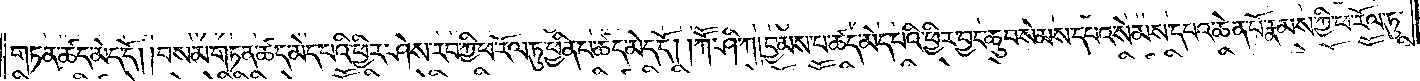གཏན་ཚད་མེད་དོ། །བསམ་གཏན་ཚད་མེད་པའི་ཕྱིར་ཤེས་རབ་ཀྱི་ཕ་རོལ་ཏུ་ཕྱིན་པ་ཚད་མེད་དོ། །ཀཽ་ཤི་ཀ། བྱམས་པ་ཚད་མེད་པའི་ཕྱིར་བྱང་ཆུབ་སེམས་དཔའ་སེམས་དཔའ་ཆེན་པོ་རྣམས་ཀྱི་ཕ་རོལ་ཏུ་
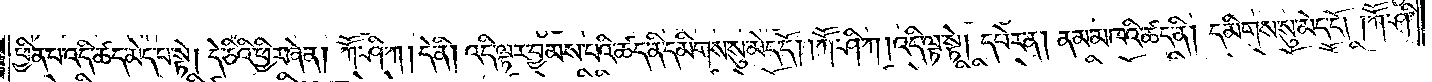ཕྱིན་པ་འདི་ཚད་མེད་པ་སྟེ། དེ་ཅིའི་ཕྱིར་ཞེ་ན། ཀཽ་ཤི་ཀ། དེ་ནི། འདི་ལྟར་བྱམས་པའི་ཚད་ནི་དམིགས་སུ་མེད་དོ། །ཀཽ་ཤི་ཀ། འདི་ལྟ་སྟེ། དཔེར་ན། ནམ་མཁའི་ཚད་ནི། དམིགས་སུ་མེད་དོ། །ཀཽ་ཤི་
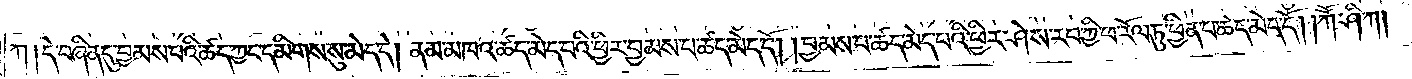ཀ། དེ་བཞིན་དུ་བྱམས་པའི་ཚད་ཀྱང་དམིགས་སུ་མེད་དེ། ནམ་མཁའ་ཚད་མེད་པའི་ཕྱིར་བྱམས་པ་ཚད་མེད་དོ། །བྱམས་པ་ཚད་མེད་པའི་ཕྱིར་ཤེས་རབ་ཀྱི་ཕ་རོལ་ཏུ་ཕྱིན་པ་ཚད་མེད་དོ། །ཀཽ་ཤི་ཀ།
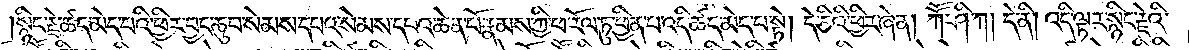སྙིང་རྗེ་ཚད་མེད་པའི་ཕྱིར་བྱང་ཆུབ་སེམས་དཔའ་སེམས་དཔའ་ཆེན་པོ་རྣམས་ཀྱི་ཕ་རོལ་ཏུ་ཕྱིན་པ་འདི་ཚད་མེད་པ་སྟེ། དེ་ཅིའི་ཕྱིར་ཞེ་ན། ཀཽ་ཤི་ཀ། དེ་ནི། འདི་ལྟར་སྙིང་རྗེའི་
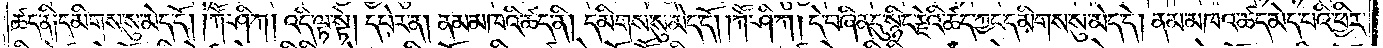ཚད་ནི། དམིགས་སུ་མེད་དོ། །ཀཽ་ཤི་ཀ། འདི་ལྟ་སྟེ། དཔེར་ན། ནམ་མཁའི་ཚད་ནི། དམིགས་སུ་མེད་དོ། །ཀཽ་ཤི་ཀ། དེ་བཞིན་དུ་སྙིང་རྗེའི་ཚད་ཀྱང་དམིགས་སུ་མེད་དེ། ནམ་མཁའ་ཚད་མེད་པའི་ཕྱིར་
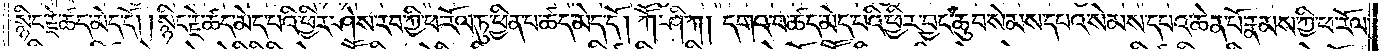སྙིང་རྗེ་ཚད་མེད་དོ། །སྙིང་རྗེ་ཚད་མེད་པའི་ཕྱིར་ཤེས་རབ་ཀྱི་ཕ་རོལ་ཏུ་ཕྱིན་པ་ཚད་མེད་དོ། ཀཽ་ཤི་ཀ། དགའ་བ་ཚད་མེད་པའི་ཕྱིར་བྱང་ཆུབ་སེམས་དཔའ་སེམས་དཔའ་ཆེན་པོ་རྣམས་ཀྱི་ཕ་རོལ་
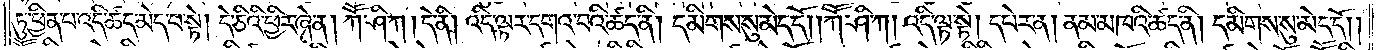ཏུ་ཕྱིན་པ་འདི་ཚད་མེད་པ་སྟེ། དེ་ཅིའི་ཕྱིར་ཞེ་ན། ཀཽ་ཤི་ཀ། དེ་ནི། འདི་ལྟར་དགའ་བའི་ཚད་ནི། དམིགས་སུ་མེད་དོ། །ཀཽ་ཤི་ཀ། འདི་ལྟ་སྟེ། དཔེར་ན། ནམ་མཁའི་ཚད་ནི། དམིགས་སུ་མེད་དོ༎
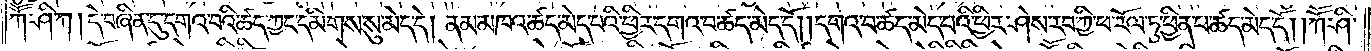ཀཽ་ཤི་ཀ། དེ་བཞིན་དུ་དགའ་བའི་ཚད་ཀྱང་དམིགས་སུ་མེད་དེ། ནམ་མཁའ་ཚད་མེད་པའི་ཕྱིར་དགའ་བ་ཚད་མེད་དོ། །དགའ་བ་ཚད་མེད་པའི་ཕྱིར་ཤེས་རབ་ཀྱི་ཕ་རོལ་ཏུ་ཕྱིན་པ་ཚད་མེད་དོ། །ཀཽ་ཤི་
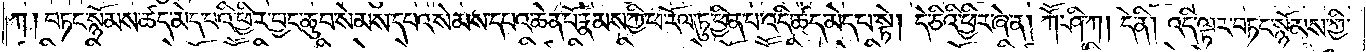ཀ། བཏང་སྙོམས་ཚད་མེད་པའི་ཕྱིར་བྱང་ཆུབ་སེམས་དཔའ་སེམས་དཔའ་ཆེན་པོ་རྣམས་ཀྱི་ཕ་རོལ་ཏུ་ཕྱིན་པ་འདི་ཚད་མེད་པ་སྟེ། དེ་ཅིའི་ཕྱིར་ཞེ་ན། ཀཽ་ཤི་ཀ། དེ་ནི། འདི་ལྟར་བཏང་སྙོམས་ཀྱི་
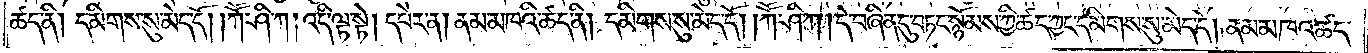ཚད་ནི། དམིགས་སུ་མེད་དོ། །ཀཽ་ཤི་ཀ། འདི་ལྟ་སྟེ། དཔེར་ན། ནམ་མཁའི་ཚད་ནི། དམིགས་སུ་མེད་དོ། །ཀཽ་ཤི་ཀ། དེ་བཞིན་དུ་བཏང་སྙོམས་ཀྱི་ཚད་ཀྱང་དམིགས་སུ་མེད་དེ། ནམ་མཁའ་ཚད་
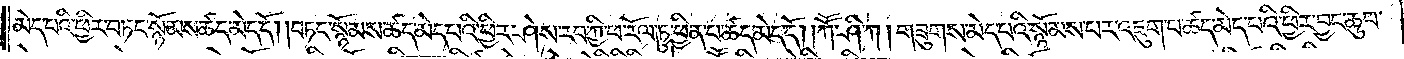མེད་པའི་ཕྱིར་བཏང་སྙོམས་ཚད་མེད་དོ། བཏང་སྙོམས་ཚད་མེད་པའི་ཕྱིར་ཤེས་རབ་ཀྱི་ཕ་རོལ་ཏུ་ཕྱིན་པ་ཚད་མེད་དོ། །ཀཽ་ཤི་ཀ། གཟུགས་མེད་པའི་སྙོམས་པར་འཇུག་པ་ཚད་མེད་པའི་ཕྱིར་བྱང་ཆུབ་
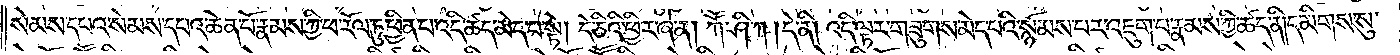སེམས་དཔའ་སེམས་དཔའ་ཆེན་པོ་རྣམས་ཀྱི་ཕ་རོལ་ཏུ་ཕྱིན་པ་འདི་ཚད་མེད་པ་སྟེ། དེ་ཅིའི་ཕྱིར་ཞེ་ན། ཀཽ་ཤི་ཀ །དེ་ནི། འདི་ལྟར་གཟུགས་མེད་པའི་སྙོམས་པར་འཇུག་པ་རྣམས་ཀྱི་ཚད་ནི། དམིགས་སུ་
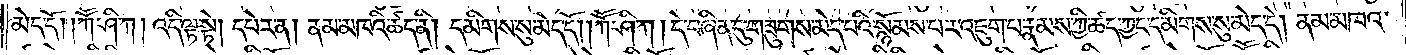མེད་དོ། །ཀཽ་ཤི་ཀ། འདི་ལྟ་སྟེ། དཔེར་ན། ནམ་མཁའི་ཚད་ནི། དམིགས་སུ་མེད་དོ། །ཀཽ་ཤི་ཀ། དེ་བཞིན་དུ་གཟུགས་མེད་པའི་སྙོམས་པར་འཇུག་པ་རྣམས་ཀྱི་ཚད་ཀྱང་དམིགས་སུ་མེད་དེ། ནམ་མཁའ་
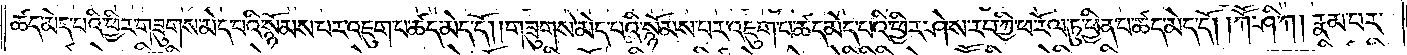ཚད་མེད་པའི་ཕྱིར་གཟུགས་མེད་པའི་སྙོམས་པར་འཇུག་པ་ཚད་མེད་དོ། །གཟུགས་མེད་པའི་སྙོམས་པར་འཇུག་པ་ཚད་མེད་པའི་ཕྱིར་ཤེས་རབ་ཀྱི་ཕ་རོལ་ཏུ་ཕྱིན་པ་ཚད་མེད་དོ། །ཀཽ་ཤི་ཀ། རྣམ་པར་
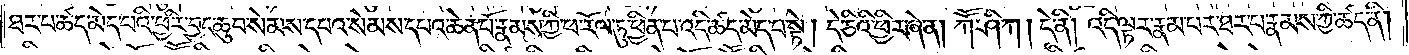ཐར་པ་ཚད་མེད་པའི་ཕྱིར་བྱང་ཆུབ་སེམས་དཔའ་སེམས་དཔའ་ཆེན་པོ་རྣམས་ཀྱི་ཕ་རོལ་ཏུ་ཕྱིན་པ་འདི་ཚད་མེད་པ་སྟེ། དེ་ཅིའི་ཕྱིར་ཞེ་ན། ཀཽ་ཤི་ཀ། དེ་ནི། འདི་ལྟར་རྣམ་པར་ཐར་པ་རྣམས་ཀྱི་ཚད་ནི།
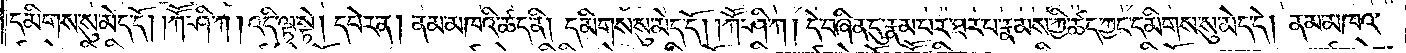དམིགས་སུ་མེད་དོ། །ཀཽ་ཤི་ཀ། འདི་ལྟ་སྟེ། དཔེར་ན། ནམ་མཁའི་ཚད་ནི། དམིགས་སུ་མེད་དོ། །ཀཽ་ཤི་ཀ། དེ་བཞིན་དུ་རྣམ་པར་ཐར་པ་རྣམས་ཀྱི་ཚད་ཀྱང་དམིགས་སུ་མེད་དེ། ནམ་མཁའ་
